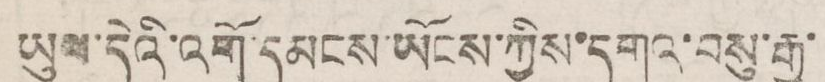ཡུལ་དེའི་འགོ་དམངས་ཡོངས་ཀྱིས་དགའ་བསུ་རྒྱ་
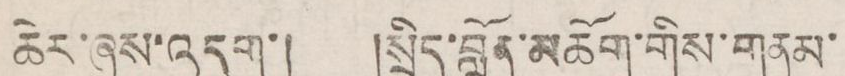ཆེར་ཞུས་འདུག་། །སྲིད་བློན་མཆོག་གིས་གནམ་
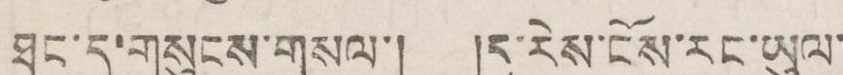ཐང་དུ་གསུངས་གསལ། །ད་རེས་ངོས་རང་ཡུལ་
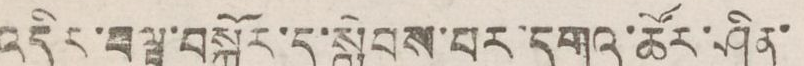འདིར་བལྟ་བསྐོར་དུ་སླེབས་པར་དགའ་ཚོར་ཤིན་
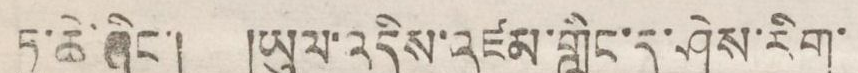ཏུ་ཆེ་ཞིང་། །ཡུལ་འདིས་འཛམ་གླིང་དུ་ཤེས་རིག་
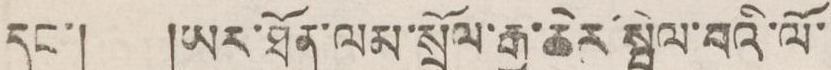དང་། །ཡར་ཐོན་ལམ་སྲོལ་རྒྱ་ཆེར་སྤེལ་བའི་ལོ་
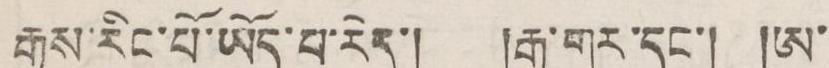རྒྱུས་རིང་པོ་ཡོད་པ་རེད་། །རྒྱ་གར་དང་། །ཨ་
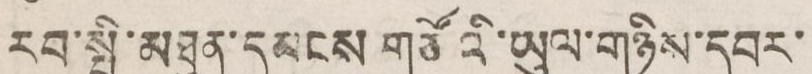རབ་སྤྱི་མཐུན་དམངས གཙོའི་ཡུལ་གཉིས་དབར་
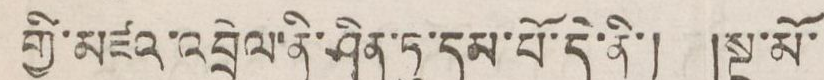གྱི་མཛའ་འབྲེལ་ནི་ཤིན་ཏུ་དམ་པོ་དེ་ནི་། །སྔ་མོ་
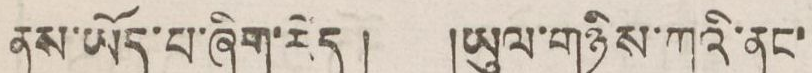ནས་ཡོད་པ་ཞིག་རེད། །ཡུལ་གཉིས་ཀའི་ནང་
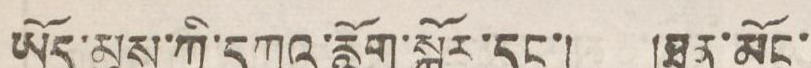ཡོད་མུས་ཀྱི་དཀའ་རྙོག་སྐོར་དང་། །ཐུན་མོང་
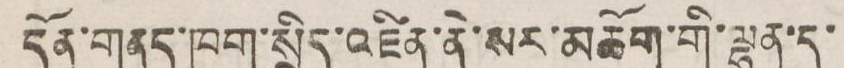དོན་གནད་ཁག་སྲིད་འཛིན་ནེ་སར་མཆོག་གི་ལྷག་དུ་
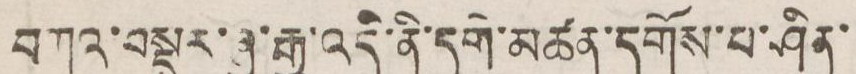བཀའ་བསྡུར་ཞུ་རྒྱུ་འདི་ནི་དགེ་མཚན་དགོས་པ་ཤིན་
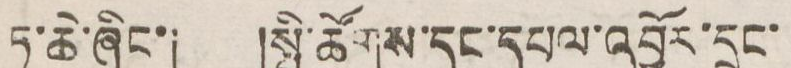ཏུ་ཆེ་ཞིང་། །སྤྱི་ཚོགས་དང་དཔལ་འབྱོར་དྲང་
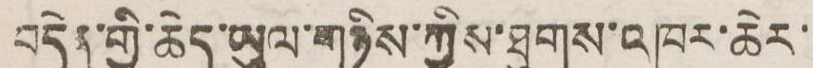བདེན་གྱི་ཆེད་ཡུལ་གཉིས་ཀྱིས་ཐུགས་འཁུར་ཆེར་
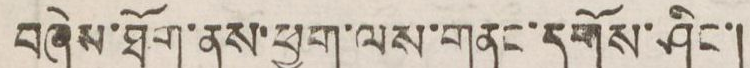བཞེས་ཐོག་ནས་ཕྱག་ལས་གནང་དགོས་ཤིང་།
